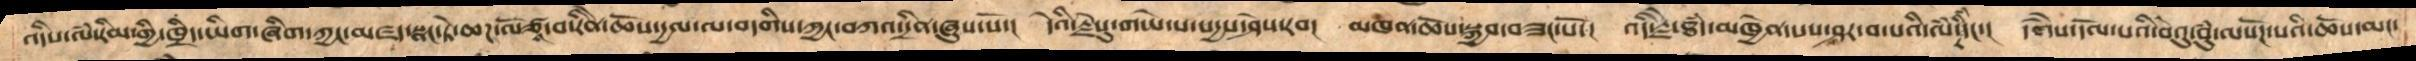འདིས་ལཾ་རིམ་གྱི་ཁྲིད་ཡིག་ཞིག་ཀྱང་མཛད་སྣང་ཏེ་ཆཌ་ལོ་ཙཱ་བ་རིནེ་ཆོས་དྱལ་ལ་བདགིས་བཀའ་དྲིན་ཞུས་སོ་། དེའི་རྗེསུ་གཡེ་ས་སདྱས་ཤེས་རབ། མཁན་ཆོས་སྐྱབ་བཟང་པོ་། འདི་རྗེ་ཐཾད་མཁྱེན་པས་ཤར་བ་པའི་ལཾ་རིཾ་དང་།  དགཻས་དོལ་པའི་བེའུ་བུཾ་ལསོཌ་པའི་ཆོས་མང་
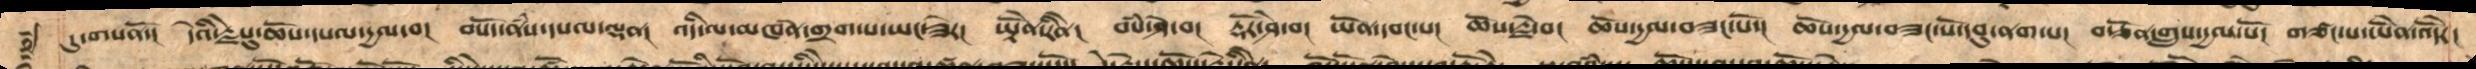དུ་གསནོ་།  དེའི་རྗེསུ་ཆོས་དཔལ་དྱལ་བ། བསོད་ནཾས་དཔལ་ལྡན། འདི་ལ་མཁན་གྲག་པ་ཡང་ཟེར།  ཡྟོནེ་རིནེ།  བསཾ་ཤེ་བ། དྷོར་ཤེ་བ། ཡོན་དབང་པ།  ཆོས་རྗེ་བ།  ཆོས་དྱལ་བཟང་པོ་།  ཆོས་དྱལ་བཟང་པོ་དབུ་ནག་པ།  བརྩོན་གྲུས་དྱལ་པོ།  གཙང་པ་ཡོནེ་འོདེར།
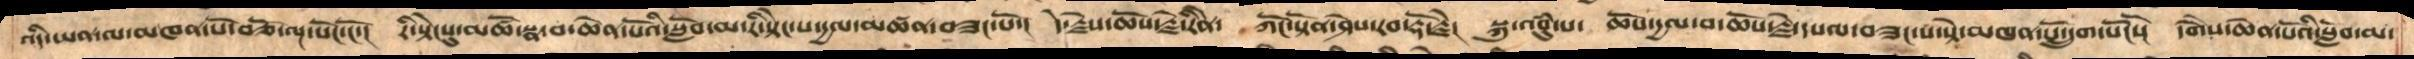འདི་ཡན་ལ་མཁན་པོ་བཅོ་ལྔ་སོང་ངོ་།  རི་སྟེངསུ་མཚོ་སྣ་བ་ཆེན་པོའི་སློབ་མ་རི་སྟེང་པ་དྱལ་མཚན་བཟང་པོ་།  དེ་རྗེས་ཆོས་རྗེ་རིེན་  ཀོང་སྟོན་ཤེས་རབ་རྡོ་རྗེ།  སྐུ་འབུཾ་པ་  ཆོས་དྱལ་བ་ཆོས་རྗེ་དཔལ་བཟང་པ་སྟེ་མཁན་པོ་དྲུག་སོང་ངོ  དགཻས་ཆེན་པོའི་སློབ་མ་
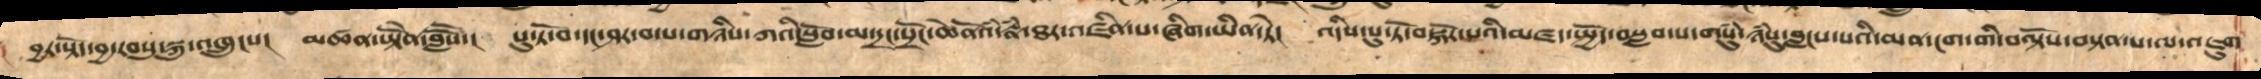བྱར་སྟོད་བྱ་རབསུ་སྐུ་འཁྲུངས།  མཚན་ཡྟོན་བླཽས་།  པུ་ཏོ་བ་དང་ཤར་བ་པ་གཉིས་ཀའི་སློབ་མ་དྲང་སྲོང་ཆེོནའཾ་རྣཾ་ཐར་འཛིན་པ་ཞིག་ཡིན་ཏེ།  འདིས་པུ་ཏོ་བསྐོར་པའི་མཛད་སྤྱོད་བསླབ་པ་གསུཾ་ཉཾསུ་བླངས་པའི་མན་ངག་གི་བལྟོས་བསྟན་པ་ལ་འཇུག
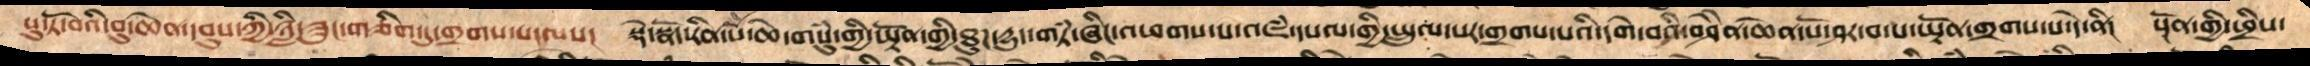པུ་ཏོ་བའི་བུ་ཆེན་དབུས་ཀྱི་ཉླི་ཟུང་གཅིག་དུ་གྲགས་པ་ལས། སྡེ་སྣོད་རིན་པོ་ཆེ་གསུཾ་གྱི་ཡྟོན་གྱི་ཐུཌ་དྱུད་གཏཾ་ཞིང་འཕགས་པ་འཇཾ་དཔལ་གྱི་སྤྲུལ་པར་གྲགས་པའིི་དགེ་བའི་བཤཻས་ཆེན་པོ་ཤར་བ་པ་ཡྟོན་གྲགས་པ་དེ་ནི། སྔོན་གྱི་ཕྲིས་
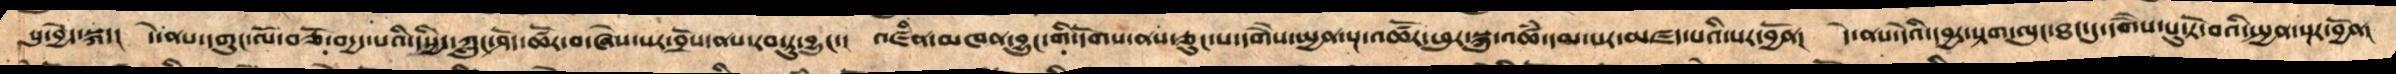སུ་བྱེད་སྐད།  དེ་ནས་དགུང་ལོ་བཅོ་བདྱད་པའི་དཔྱིད་ཀླུང་ཤོད་ཚོར་བ་ཞེས་པར་བྲོས་ནས་རབ་ཏུ་བྱུང་།  འཛིན་མཁན་བྱུང་གི་དོགས་ནས་ཅུང་པ་དགཻས་སྤྱན་སྔ་འཚོར་ཕུར་སྐུ་འཚཾ་དམ་པར་མཛད་པའི་སར་བྱོན།  དེ་ནས་དེའི་དབྱར་སྟག་ལུང་ཐང་དུ་དགཻས་པུ་ཏོ་བའི་སྤྱན་སྔར་བྱོན།
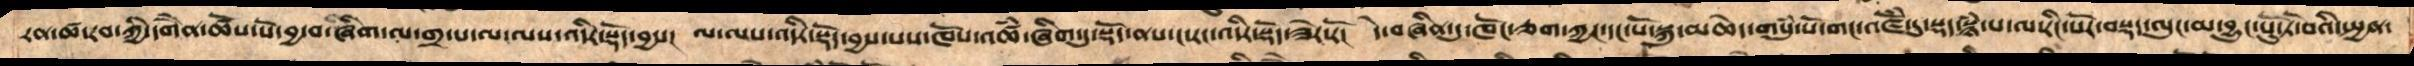ཏན་ཚ་རབ་ཀྱི་དགཻན་ཚོས་པོ་བྱ་བ་ཞིག་ལ་གྲ་པ་ལ་ལས་འདིར་སྡོད་བྱས།  ལ་ལས་འདིར་སྡོད་བྱས་པས་ཁོས་འཚཾ་ཞིགསུ་སྡོད་ནས་ང་རང་འདིར་སྡོད་ཟེར་རོ།  དེ་བཞིན་དུ་ཁོང་ཅག་ཀྱང་དང་པོ་སྐུ་མཆེད་གསུཾ་པོ་གང་འཛོཾ་དུ་སྡད་སྙཾ་པ་ལ་རིང་པོར་བསྡད་ལུང་མ་བྱུང་པུ་ཏོ་བའི་སྤྱན་
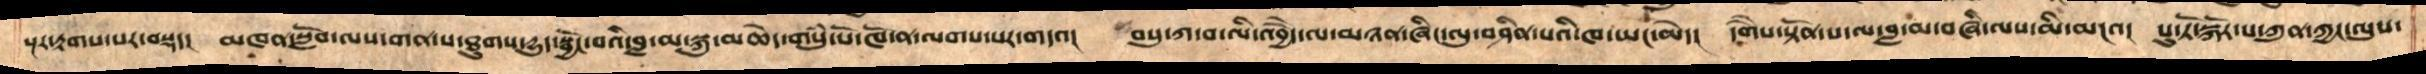སྔར་རྟགས་པར་བསྡད།  མཁན་སློབ་ལས་གན་པ་ཐུགས་དྱུད་སྦྱོང་བའི་བླ་མ་སྐུ་མཆེད་གསུཾ་པོ་ཁོ་ན་ལགས་པར་གདའ།  བསུ་ཀ་བ་ལི་འབྱེད་འབྱཻད་ལ་མཉན་ཞིང་ལུ་གཤིན་པའི་ཁ་ཡང་མེད།  དགཻས་སྟོན་པ་ལ་བླ་མ་བཞི་ལས་མི་མངའ།  པུ་ཏོ་སྐོར་པ་ཀུན་ཀྱང་ལུས་
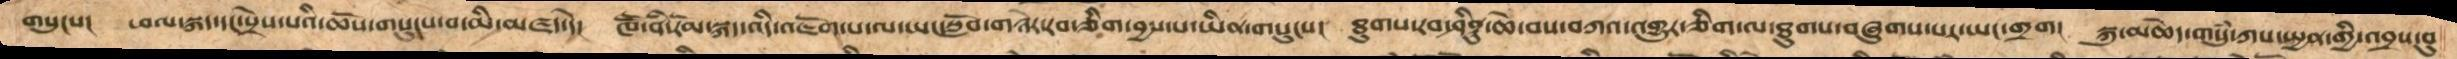གསུངས།  ཕལ་སྐད་དང་སྲེས་པའི་ཆོས་གསུངས་བ་མི་མཛད་དེ།  ཁཽ་ནི་རོམ་སྐད་འདི་འཇོག་པ་ལ་ཡང་སློབ་གཉེར་རབ་ཅིག་བྱས་པ་ཡིན་གསུངས།  ཐུགས་རབ་ཤིནྟུ་ཆེ་བས་བཀའ་འགྱུར་ཅིག་ལ་ཐུགས་བཞུགས་པར་ཡང་གྲག།  སྐུ་མཆེད་གསུཾ་ཀས་སྤྱན་གྱི་འབྲས་བུ
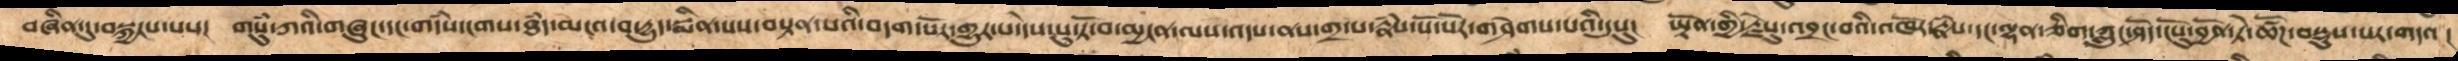བཞིན་དུ་བསྐྱངས་པས།  གསུཾ་ཀའི་གཞུང་དང་གདཾས་ངག་ཐཾད་མངའ་བ་དྱུད་སྨིན་པས་བསྟན་པའི་བདག་པོར་གྱུར་པ་དེས་པུ་ཏོ་བ་མྱངན་ལས་འདས་ནས་གྲ་པ་རྣཾས་སོ་སོར་གཤེགས་པའི་དུསུ།  ཡྟོན་གྱི་རྗེསུ་འབྲང་བའི་འཁོར་རྣཾས་དང་ལྷན་ཅིག་ཀླུང་ཤོད་ངོསུ་བྱོན་ཏེ་ཚོཌ་བསྡུས་པར་གདའ།
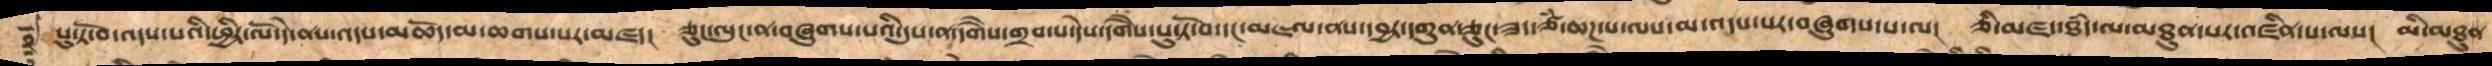པུ་ཏོ་བ་འདས་པའི་ཕྱིར་ལོ་དེ་ནས་འདས་མཆོད་མ་ཆགས་པར་མཛད།  ཅུང་ལུང་ན་བཞུགས་པའི་དུས་ན་དགཻས་གྲབ་པ་དེས་དགཻས་པུ་ཏོ་བ་དང་མཇལ་ནས་དབྱར་དགུན་ཅུང་ཟད་ཙཾ་ཆཌ་པ་ལས་མ་འདས་པར་བཞུགས་པ་ལ།  ཅི་མཛད་ཐཾད་ལ་མཐུན་པར་འཛིན་པ་ལས།  མི་མཐུན་
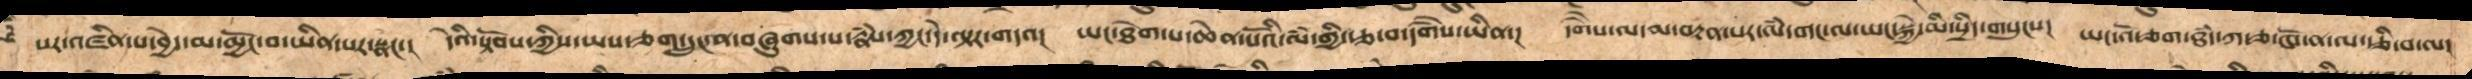པར་འཛིན་པ་བྱེད་མ་མྱོང་བ་ཡིན་པར་སྣང་།  དེའི་སྟོབས་ཀྱིས་ཡས་ཅག་དྲུང་ན་བཞུགས་པ་རྣཾས་ཀྱང་དེ་ལྟར་གདའ།  ཡང་ཐེག་པ་ཆེན་པོའི་ལཾ་གྱི་རྩ་བ་དགཻས་ཡིན་། དགཻས་ལ་མ་བརྟེན་པར་ལཾ་གང་ལ་ཡང་སྐྱེ་མི་སྲིད་གསུངས།  ཡང་འོ་ཅག་ཐཾད་ཀ་རྩ་ཁོ་ན་ལ་རྩི་བ་ལ་
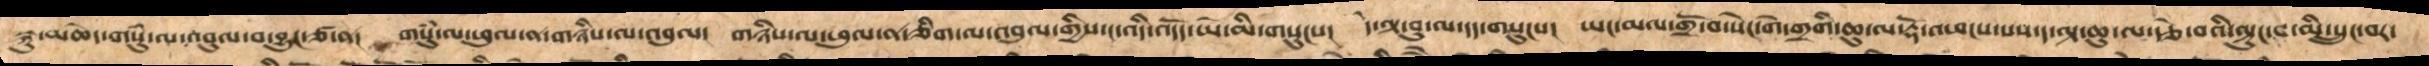སྐུ་མཆེད་གསུཾ་ལ་འབུལ་བ་བྱུང་ཙ་ན།  གསུཾ་ལ་ཕུལ་ན་གཉིས་ལ་འབུལ།  གཉིས་ལ་ཕུལ་ན་ཅིག་ལ་འབུལ་གྱིས་ང་འདི་འདོད་ཡེ་མི་གསུངས།  དེ་ལྟ་བུ་ལ་དད་གསུངས།  ཡང་མལ་གྲོ་བ་སེང་གེ་གྲགི་ཆུ་ལ་རྡོ་འཕངས་པསད་ལྟ་ཆུ་ལ་རྩེ་བའི་ལྟུང་བ་མི་སྲུང་བར་
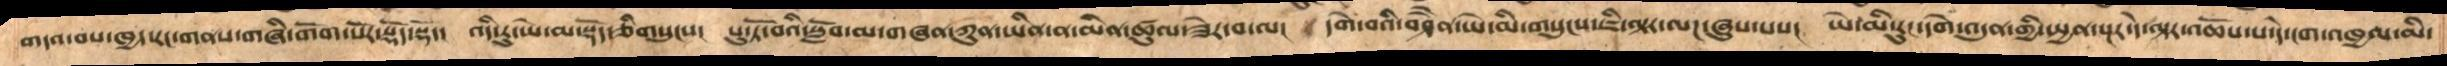གདའ་བས་ཁྱད་རང་གནས་གཞི་གོག་པོར་སྡོད་སྡོད་  འདི་རུ་ཡེ་མ་སྡོད་ཅིགསུངས།  པུ་ཏོ་བའི་སློབ་མ་གཞན་ཀུན་ཡིན་ན་མིན་ཚུལ་ཟེར་བ་ལ།  དགེ་བའི་བཤཻན་ཡེ་མི་གསུངས་ཇི་ལྟར་ལཌ་ཞུས་པས།  ཡེ་མི་རུང་དགེ་འདུན་གྱི་སྤྱན་སྔར་དེ་ལྟར་འཆོས་པ་དེ་ངག་འཁྱལ་མི་
